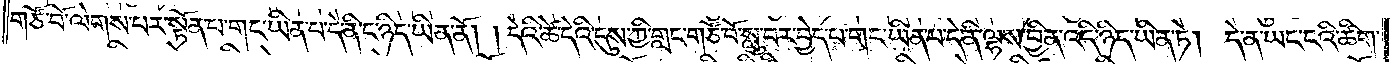གཙོ་བོ་ལེགས་པར་སྟོན་པ་གང་ཡིན་པ་དེ་ནི་ང་ཉིད་ཡིན་ནོ། །དེའི་ཚེ་དེའི་དུས་ཀྱི་གླང་གཙོ་བོ་སླུ་བར་བྱེད་པ་གང་ཡིན་པ་དེ་ནི་ལྷས་བྱིན་འདི་ཉིད་ཡིན་ཏེ། དེ་ན་ཡང་ངའི་ཚིག་
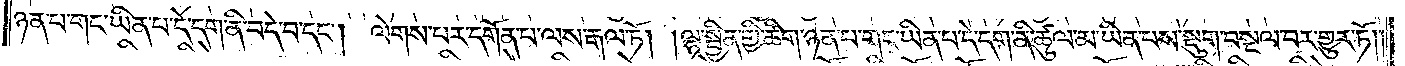ཉན་པ་གང་ཡིན་པ་དེ་དག་ནི་བདེ་བ་དང༌། ལེགས་པར་དགོན་པ་ལས་རྒལ་ཏོ། །ལྷ་སྦྱིན་གྱི་ཚིག་ཉན་པ་གང་ཡིན་པ་དེ་དག་ནི་ཚུལ་མ་ཡིན་པས་སྡུག་བསྔལ་བར་གྱུར་ཏོ། །
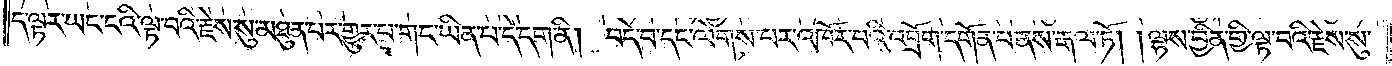ད་ལྟར་ཡང་ངའི་ལྟ་བའི་རྗེས་སུ་མཐུན་པར་གྱུར་པ་གང་ཡིན་པ་དེ་དག་ནི། བདེ་བ་དང་ལེགས་པར་འཁོར་བའི་འབྲོག་དགོན་པ་ནས་རྒལ་ཏོ། །ལྷས་བྱིན་གྱི་ལྟ་བའི་རྗེས་སུ་
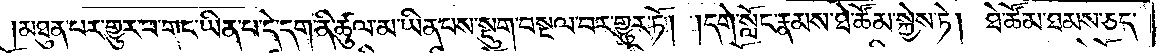མཐུན་པར་གྱུར་པ་གང་ཡིན་པ་དེ་དག་ནི་ཚུལ་མ་ཡིན་པས་སྡུག་བསྔལ་བར་གྱུར་ཏོ། །དགེ་སློང་རྣམས་ཐེ་ཚོམ་སྐྱེས་ཏེ། ཐེ་ཚོམ་ཐམས་ཅད་
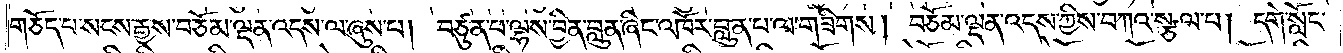གཅོད་པ་སངས་རྒྱས་བཅོམ་ལྡན་འདས་ལ་ཞུས་པ། བཙུན་པ་ལྷས་བྱིན་བླུན་ཞིང་འཁོར་བླུན་པ་ལ་གཟིགས། བཅོམ་ལྡན་འདས་ཀྱིས་བཀའ་སྩལ་པ། དགེ་སློང་
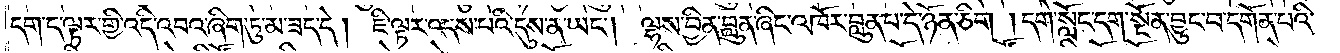དག་ད་ལྟར་གྱི་འདི་འབའ་ཞིག་ཏུ་མ་ཟད་དེ། ཇི་ལྟར་འདས་པའི་དུས་ན་ཡང༌། ལྷས་བྱིན་བླུན་ཞིང་འཁོར་བླུན་པ་དེ་ཉོན་ཅིག །དགེ་སློང་དག་སྔོན་བྱུང་བ་དགོན་པའི་
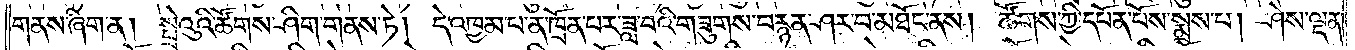གནས་ཞིག་ན། སྤྲེའུའི་ཚོགས་ཤིག་གནས་ཏེ། དེ་འཁྱམས་པ་ན་ཁྲོན་པར་ཟླ་བའི་གཟུགས་བརྙན་ཤར་བ་མཐོང་ནས། ཚོགས་ཀྱི་དཔོན་པོས་སྨྲས་པ། ཤེས་ལྡན་
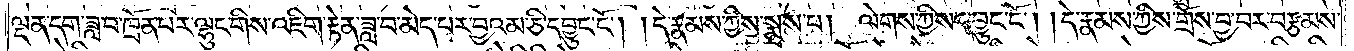ལྡན་དག་ཟླ་བ་ཁྲོན་པར་ལྷུང་གིས་འཇིག་རྟེན་ཟླ་བ་མེད་པར་བྱའམ་ཅི་དབྱུང་ངོ་།དེ་རྣམས་ཀྱིས་སྨྲས་པ། ལེགས་ཀྱིས་དབྱུང་ངོ༌། །དེ་རྣམས་ཀྱིས་གྲོས་བྱ་བར་བརྩམས་
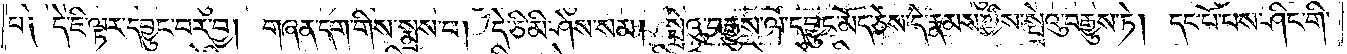པ། དེ་ཇི་ལྟར་དབྱུང་བར་བྱ། །གཞན་དག་གིས་སྨྲ་བ། དེ་ཅི་མི་ཤེས་སམ། སྤྲེའུ་བརྒྱུས་ལ་དབྱུང་མོད་ཅེས་དེ་རྣམས་ཀྱིས་སྤྲེའུ་བརྒྱུས་ཏེ། དང་པོ་པས་ཤིང་གི་
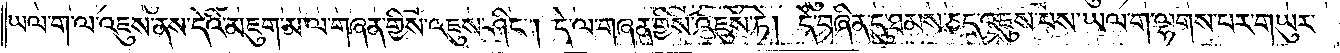ཡལ་ག་ལ་འཇུས་ནས་དེའི་མཇུག་མ་ལ་གཞན་གྱིས་འཇུས་ཤིང༌། དེ་ལ་གཞན་གྱིས་འཇུས་ཏེ། དེ་བཞིན་དུ་ཐམས་ཅད་འཇུས་པས་ཡལ་ག་ལྷགས་པར་གཡུར་
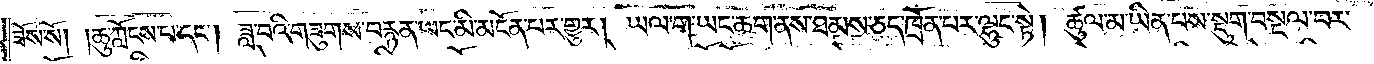ཟོས་སོ། །ཆུ་ཀློངས་པ་དང༌། ཟླ་བའི་གཟུགས་བརྙན་ཡང་མི་མངོན་པར་གྱུར། ཡལ་ག་ཡང་ཆག་ནས་ཐམས་ཅད་ཁྲོན་པར་ལྷུང་སྟེ། ཚུལ་མ་ཡིན་པས་སྡུག་བསྔལ་བར་
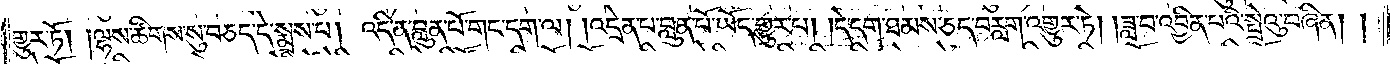གྱུར་ཏོ། །ལྷས་ཚིགས་སུ་བཅད་དེ་སྨྲས་པ། འདི་ན་བླུན་པོ་གང་དག་ལ། །འདྲེན་པ་བླུན་པོ་ཡོད་གྱུར་པ། །དེ་དག་ཐམས་ཅད་བརླག་འགྱུར་ཏེ། །ཟླ་བ་འབྱིན་པའི་སྤྲེའུ་བཞིན། །
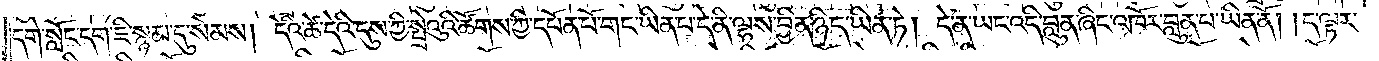དགེ་སློང་དག་ཇི་སྙམ་དུ་སེམས། །དེའི་ཚེ་དེའི་དུས་ཀྱི་སྤྲེའུའི་ཚོགས་ཀྱི་དཔོན་པོ་གང་ཡིན་པ་དེ་ནི་ལྷས་བྱིན་ཉིད་ཡིན་ཏེ། དེ་ན་ཡང་འདི་བླུན་ཞིང་འཁོར་བླུན་པ་ཡིན་ནོ། །ད་ལྟར་
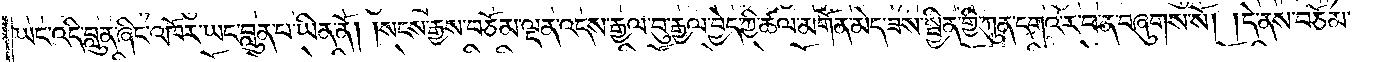ཡང་འདི་བླུན་ཞིང་འཁོར་ཡང་བླུན་པ་ཡིན་ནོ། །སངས་རྒྱས་བཅོམ་ལྡན་འདས་རྒྱལ་བུ་རྒྱལ་བྱེད་ཀྱི་ཚལ་མགོན་མེད་ཟས་སྦྱིན་གྱི་ཀུན་དགའ་ར་བ་ན་བཞུགས་སོ། །དེ་ནས་བཅོམ་
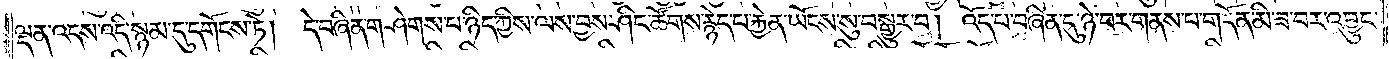ལྡན་འདས་འདི་སྙམ་དུ་དགོངས་ཏེ། དེ་བཞིན་གཤེགས་པ་ཉིད་ཀྱིས་ལས་བྱས་ཤིང་ཚོགས་རྙེད་པ་རྐྱེན་ཡོངས་སུ་བསྒྱུར་བ། །འོད་པ་བཞིན་དུ་ཉེ་བར་གནས་པ་གདོན་མི་ཟ་བར་འབྱུང་
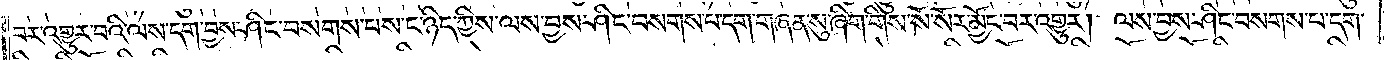བར་འགྱུར་བའི་ལས་དག་བྱས་ཤིང་བསགས་པས་ང་ཉིད་ཀྱིས་ལས་བྱས་ཤིང་བསགས་པ་དག་གཞན་སུ་ཞིག་གིས་སོ་སོར་མྱོང་བར་འགྱུར། །ལས་བྱས་ཤིང་བསགས་པ་དག་
